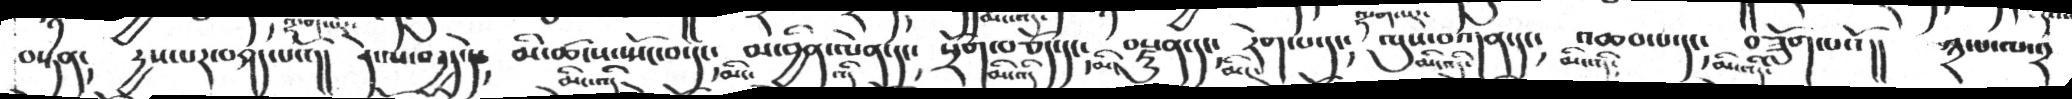བསྟན༴  རྱས་པར་བཤད་པའོ་།།  དེ་ལ་བརྱད་དེ༴  མི་ཚངས་སྤོང་བ་དང་  མ་བྱིན་ལེན་དང༴   སྲོག་གཅོད་དང༴   བརྫུན་དང༴  རེག་པ་དང༴  ལུས་བའདན་དང༴   འཆབ་པ་དང༴  བཟློག་པའོ་།།  ༣་པ་ལ་༢
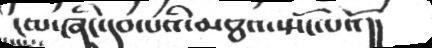ངལ་ཞིང་དུབ་པའི་མཐའ་སྤོད་པའོ།།
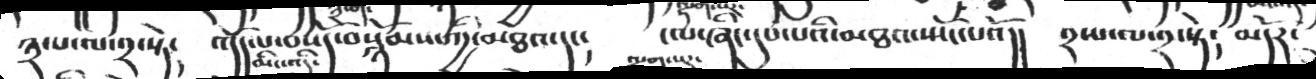༣་པ་ལ་༢་སྟེ༴  འདོད་པ་བསོད་བསྙོམས་ཀྱི་མཐའ་དང༴  ངལ་ཞིང་དུབ་པའི་མཐའ་སྤོང་པའོ།།  ༢་པ་ལ་༢་སྟེ༴  མདོར་
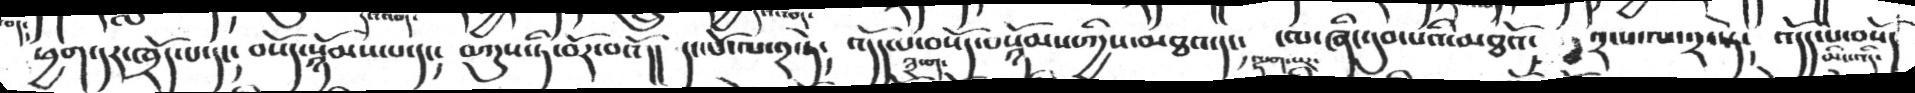ཕྱག་དར་ཁྲོད་པ་དང༴  བསོད་སྙོམས་པ་དང༴  བཀུས་ཏི་བོར་བའོ།།  དང་པོ་ལ་༢་ཏེ༴   འདོད་པ་བསོད་བསྙོམས་ཀྱིས་མཐའ་དང༴   ངལ་ཞིང་དུབ་པའི་མཐའོ་   ༢་པ་ལ་༢་སྟེ༴  འདོད་པ་བསོད
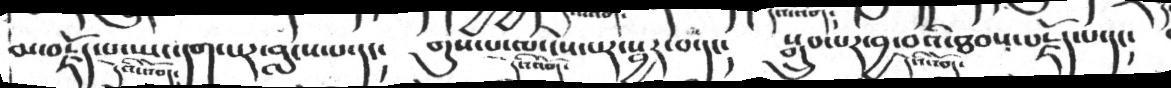མ་བརྗོད་པ་ཡང་དག་པར་བླངས་པ་དང༴  གུས་པ་ལ་ངེས་པར་སྦྱར་བ་དང༴  སྒྲུབ་པར་བྱ་བའི་ཐབས་བརྗོད་པ་དང༴
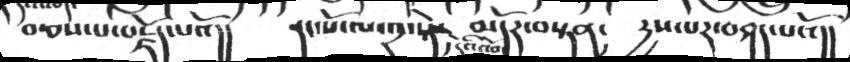བཅས་པ་བརྗོད་པའོ།།   དང་པོ་ལ་༢་སྟེ་    མདོར་བསྟན་     རྱས་པར་བཤད་པའོ་།།
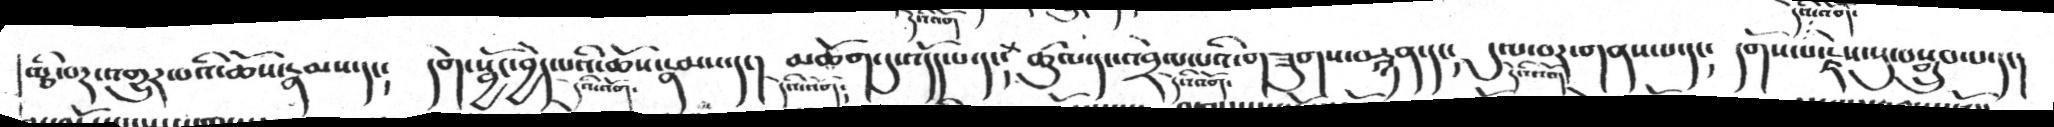ལྕི་པར་འགྱུར་བའི་ཆོས་རྣམས་དང།   དགེ་སྦྱོང་བྱེད་པའི་ཆོས་རྣམས་དང།  མཆོག་དུ་འདོད་པ་དང། ཚུལ་དང་འབྲེལ་པའི་གཟུགས་བརྙམ་དང།  དུལ་བར་གནས་པ་དང།  དགོས་པ་རྗེས་སུ་བསྒྲུབ་པ་དང་།
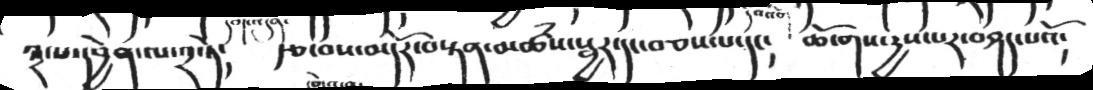༣་པ་དབྱེན་ལ་༢་ཏེ༴  རྩ་བས་མདོར་བསྟན་མཚཾས་སྦྱར་དང་བཅས་པ་དང༴  ཆོ་གས་རྱས་པར་བཤད་པའོ༴
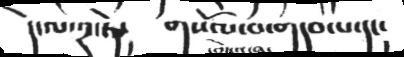དེ་ལ་༢་ཏེ་     གསོལ་བ་གདབ་པ་དང་
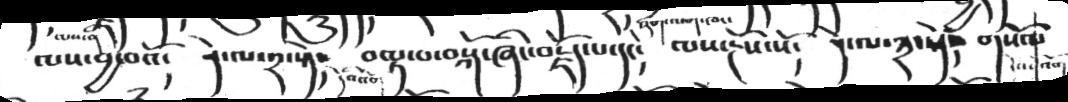ལས་བྱ་བའོ།    དེ་ལ་༢་སྟེ།   བལྟ་བ་བསྐོ་ཞིང་བརྗོད་པ་དང།   ལས་རྔོས་སོ།    དེ་ལ་༣་སྟེ།  གསོལ་
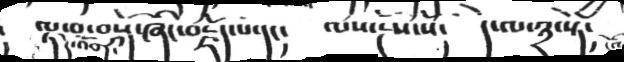ལྟ་བ་བསྐོ་ཞིང་བརྗོད་པ་དང༴  ལས་རྔོས་སོ༴   དེ་ལ་༣་སྟེ༴
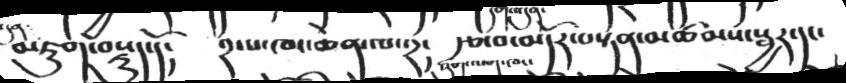མཇུག་བསྡུད་དོ༴   ༢་པ་ཁང་ཆེན་ལ་༢༴  རྩ་བ་མདོར་བསྟན་མཚམས་སྦྱར་དང་
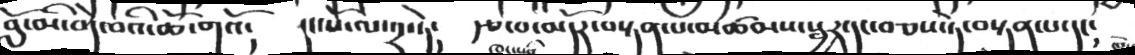བློ་མི་བདེ་བའི་ཆོ་གའོ༴  དང་པོ་ལ་༢་ཏེ༴   རྩ་བ་མདོར་བསྟན་པ་མཚམས་སྦྱར་དང་བཅས་ཏེ་བསྟན་པ་དང༴
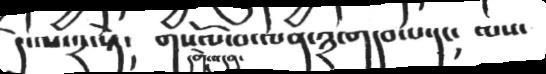དེ་ལ་༢་སྟེ༴  གསོལ་བ་ལན་༣་གདབ་པ་དང༴  ལས་
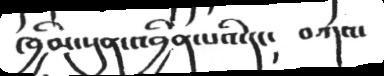ཁྱིམ་སུན་འབྱིན་པའི་དང།  བཀའ
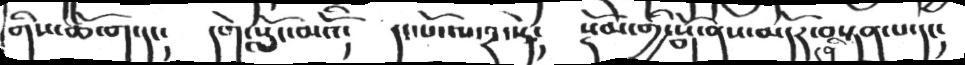གིས་ཆོ་ག་དང༴  དགེ་སློང་མའོ༴   དང་པོ་ལ་༢་སྟེ༴  སྡོམ་གྱི་སྒོ་ནས་མདོར་བསྟན་པ་དང༴
